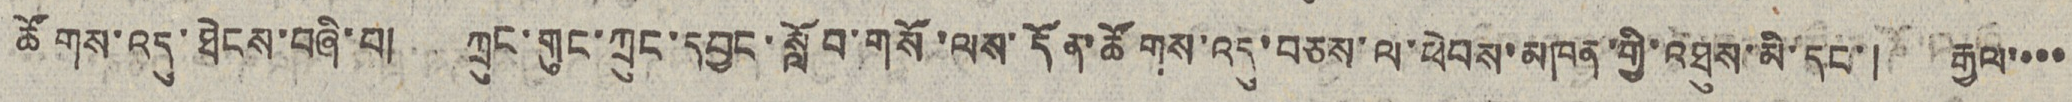ཚོགས་འདུ་ཐེངས་བཞི་པ། ཀྲུང་གུང་ཀྲུང་དབྱང་སློབ་གསོ་ལས་དོན་ཚོགས་འདུ་བཅས་ལ་ཕེབས་མཁན་གྱི་འཐུས་མི་དང་། རྒྱལ་་་་
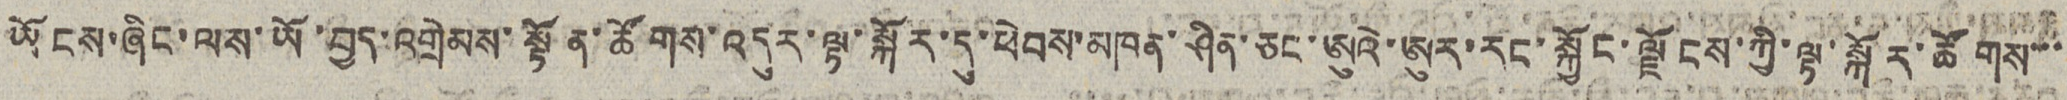ཡོངས་ཞིང་ལས་ཡོ་བྱད་འགྲེམས་སྟོན་ཚོགས་འདུར་ལྟ་སྐོར་དུ་ཕེབས་མཁན་ཤིན་ཅང་ཨུའེ་ཨུར་རང་སྐྱོང་ལྗོངས་ཀྱི་ལྟ་སྐོར་ཚོགས་་་
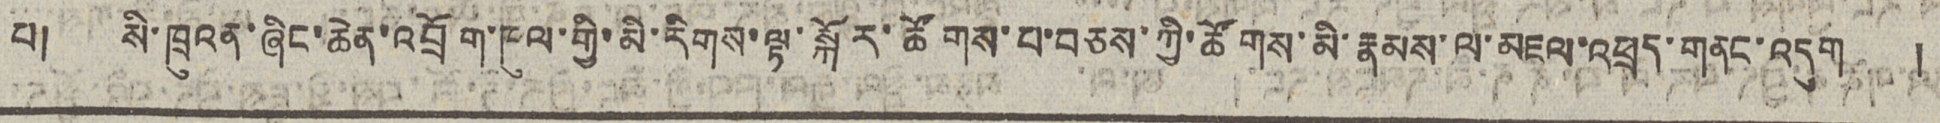པ། སི་ཁྲུའན་ཞིང་ཆེན་འབྲོག་ཁུལ་གྱི་མི་རིགས་ལྟ་སྐོར་ཚོགས་པ་བཅས་ཀྱི་ཚོགས་མི་རྣམས་ལ་མཇལ་འཕྲད་གནང་འདུག །
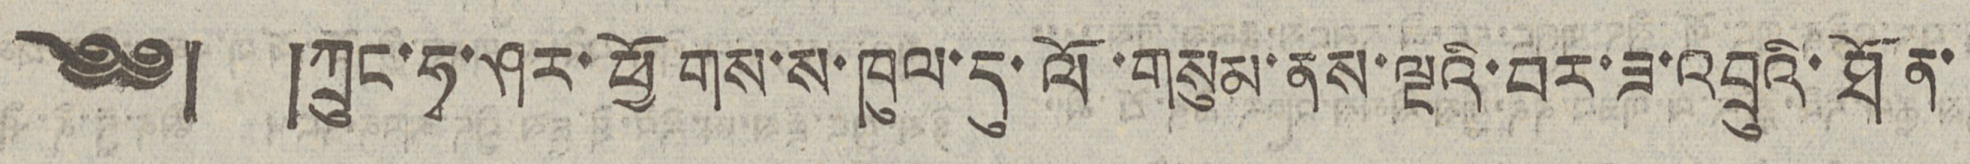༄༅། །ཀྲུང་ཧྭ་ཤར་ཕྱོགས་ས་ཁུལ་དུ་ལོ་གསུམ་ནས་ལྔའི་བར་ཟ་འབྲུའི་ཐོན་
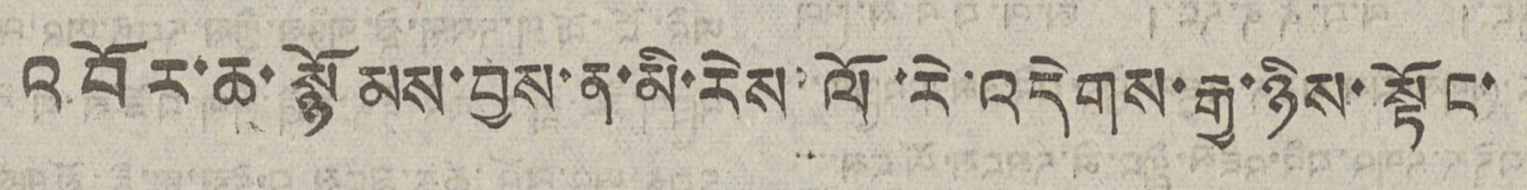འབོར་ཆ་སྙོམས་བྱས་ན་མི་རེས་ལོ་རེ་འདེགས་རྒྱ་ཉིས་སྟོང་
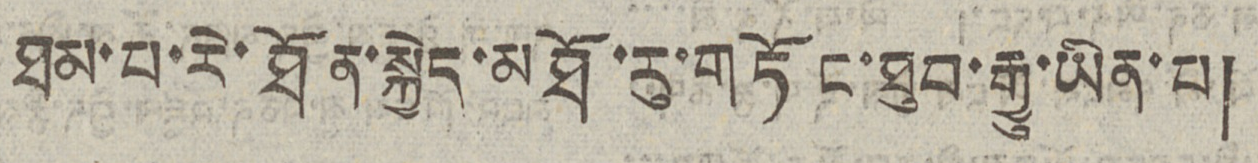ཐམ་པ་རེ་ཐོན་སྐྱེད་མཐོ་རུ་གཏོང་ཐུབ་རྒྱུ་ཡིན་པ།
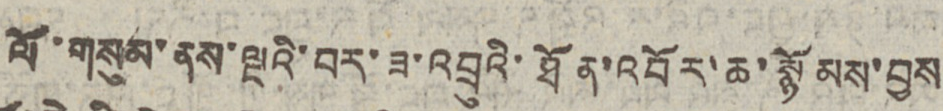ལོ་གསུམ་ནས་ལྔའི་བར་ཟ་འབྲུའི་ཐོན་འབོར་ཆ་སྙོམས་བྱས
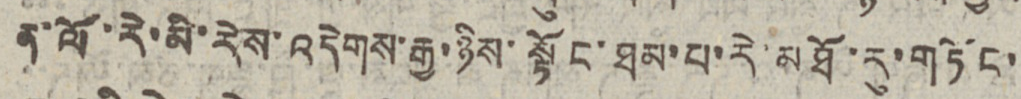ན་ལོ་རེ་མི་རེས་འདེགས་རྒྱ་ཉིས་སྟོང་ཐམ་པ་རེ་མཐོ་རུ་གཏོང་
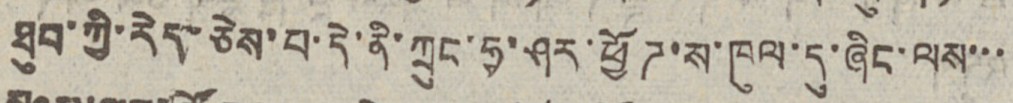ཐུབ་ཀྱི་རེད་ཅེས་པ་དེ་ནི་ཀྲུང་ཧྭ་ཤར་ཕྱོཊ་ས་ཁུལ་དུ་ཞིང་ལས་་་
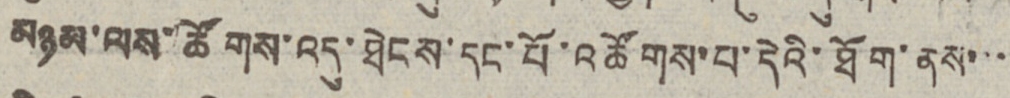མཉམ་ལས་ཚོགས་འདུ་ཐེངས་དང་པོ་འཚོགས་པ་དེའི་ཐོག་ནས་་་
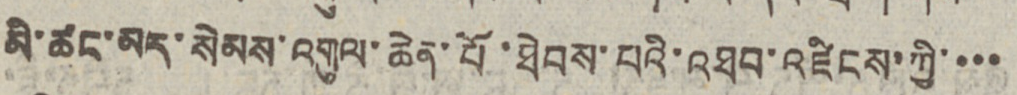མི་ཚང་མར་སེམས་འགུལ་ཆེན་པོ་ཐེབས་པའི་འཐབ་འཛིངས་ཀྱི་་་་
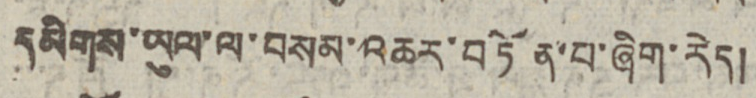དམིགས་ཡུལ་ལ་བསམ་འཆར་བཏོན་པ་ཞིག་རེད།
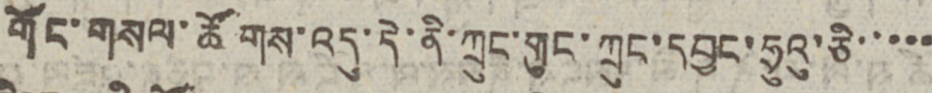གོང་གསལ་ཚོགས་འདུ་དེ་ནི་ཀྲུང་གུང་ཀྲུང་དབྱང་ཧྲུའུ་ཅི་་་་་
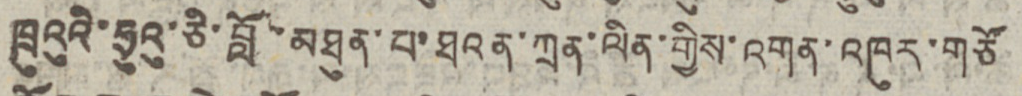ཁྲུའུའི་ཧྲུའུ་ཅི་བློ་མཐུན་པ་ཐའན་ཀྲན་ལིན་གྱིས་འགན་འཁུར་གཙོ
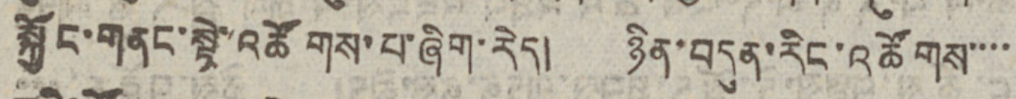སྐྱོང་གནང་སྟེ་འཚོགས་པ་ཞིག་རེད། ཉིན་བདུན་རིང་འཚོགས་་་་
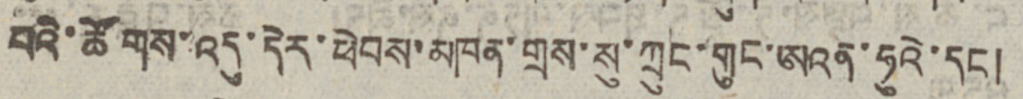པའི་ཚོགས་འདུ་དེར་ཕེབས་མཁན་གྲས་སུ་ཀྲུང་གུང་ཨའན་ཧུའེ་དང།
